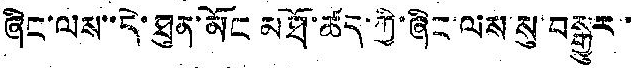ཞིང་ལས་དེ་ཐུན་མོང མཐོ་ཚད་ཀྱི་ཞིང་ལས་སུ་བསྒྱུར་་
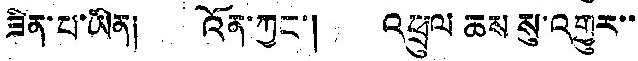ཟིན་པ་ཡིན། འོན་ཀྱང་། འཕྲུལ ཆས སུ་འགྱུར་་
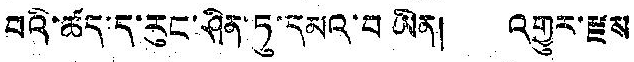བའི་ཚད་ད་རུང་ཤིན་ཏུ་དམའ་བ ཡིན། འགྱུར་རྫས
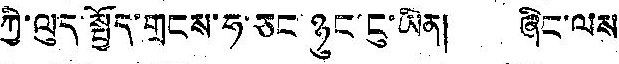ཀྱི་ལུད་སྤྱོད་གྲངས་ཧ་ཅང་ཉུང་ངུ་ཡིན། ཞིང་ལས་
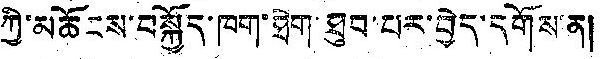ཀྱི་མཆོངས་བསྐྱོད་ཁག་ཐེག་ཐུབ་པར་བྱེད་དགོས་ན།
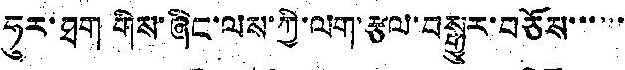ཧུར་ཐག གིས་ཞིང་ལས་ཀྱི་ལག་རྩལ་བསྒྱུར་བཅོས་་་་་་
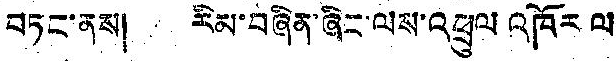བཏང་ནས། རིམ་བཞིན་ཞིང་ལས་འཕྲུལ འཁོར ལ
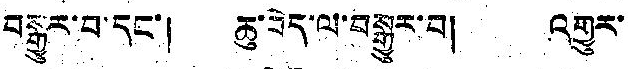བསྒྱུར་བ་དང་། ཆུ་བེད་ལ་བསྒྱུར་བ། འགྱུར་
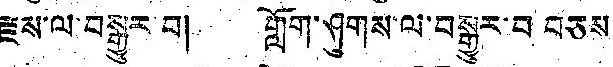རྫས་ལ་བསྒྱུར་བ། གློག་ཤུགས་ལ་བསྒྱུར་བ བཅས་
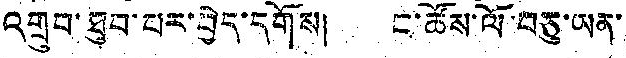འགྲུབ་ཐུབ་པར་བྱེད་དགོས། ང་ཚོས་ལོ་བཅུ་ཡན་
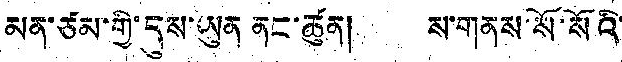མན་ཙམ་གྱི་དུས་ཡུན ནང་ཚུན། ས་གནས་སོ་སོའི་
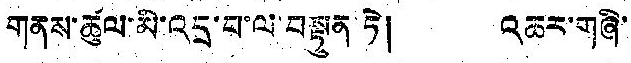གནས་ཚུལ་མི་འདྲ་བ་ལ་བསྟུན་ཏེ། འཆར་གཞི་
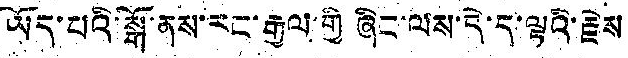ཡོད་པའི་སྒོ་ནས་རང་རྒྱལ་གྱི ཞིང་ལས་དེ་ད་ལྟའི་རྗེས
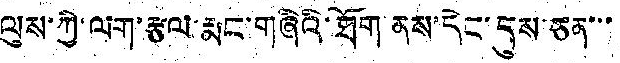ལུས་ཀྱི་ལག་རྩལ་རྨང་གཞིའི་ཐོག་ནས་དེང་དུས་ཅན་་་
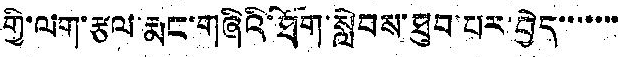གྱི་ལག་རྩལ་རྨང་གཞིའི་ཐོག་སླེབས་ཐུབ་པར་བྱེད་་་་་་་
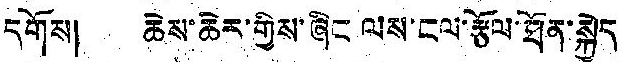དགོས། ཆེས་ཆེར་གྱིས་ཞིང ལས་ངལ་རྩོལ་ཐོན་སྐྱེད
